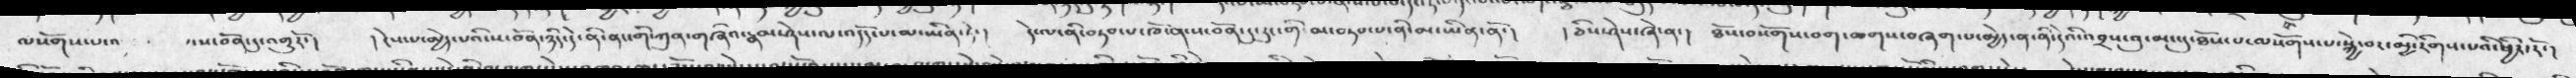ལསོགས་པ་འ    ་ས་བོན་དུ་འགྱུརོ་།  ། ངེས་པ་མྱེད་པའི་ས་བོན་ཉིད་དེ་ནི་ནང་གི་ཀུན་གཞིའ་རྣམ་ཤེས་ལ་འདོད་པ་མ་ཡིན་ཏེ་།  དེ་ལ་ནི་བཏབ་པ་ཁོ་ན་ས་བོན་དུ་རུང་གི་མ་བཏབ་པ་ནི་མ་ཡིན་ནོ་།  ། ཅིས་ཤེས་ཞེ་ན་།   ཐོས་བསོགས་་བག་ཆགས་བཞག་པ་མྱེད་ན་དེའི་འབྲས་བུ་མང་དུ་ཐོས་ལསོགས་པ་སྐྱེ་བར་མྱི་རིགས་པའི་ཕྱིར་རོ་།
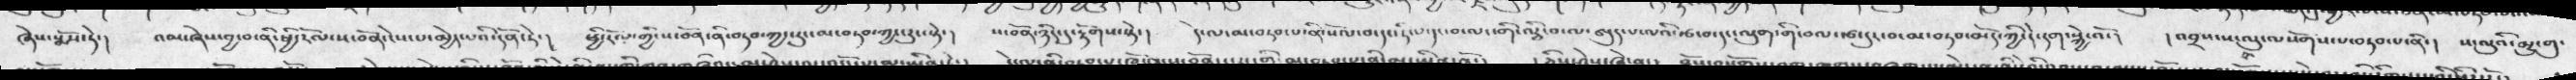ཞེས་སྨོས་ཏེ་།  འམ་ཞེས་བྱ་བ་ནི་ཕྱི་རོལ་ས་བོན་ངེས་པ་མྱེད་པའི་དོན་ཏེ་།  ཕྱི་རོལ་གྱི་ས་བོན་ནི་བཏབ་ཀྱང་རུང་མ་བཏབ་ཀྱང་རུང་སྟེ་།   ས་བོན་ཉིད་དུ་རྟོགས་སྟེ་།  དེ་ལ་མ་བཏབ་པ་ནི་སོལ་བ་དང་ཏིལ་དང་བ་ལང་གི་ལྕི་བ་ལ་ཨུ་པ་ལའི་རྩ་བ་དང་ལུག་གི་བལ་རྩ་དུང་བ་མ་བཏབ་མོད་ཀྱི་དེ་དག་སྐྱེ་འོ་།  ། འབྲས་ས་ལུ་ལསོགས་པ་བཏབ་པ་ནི་།  ས་ལུའི་མྱུ་གུ་
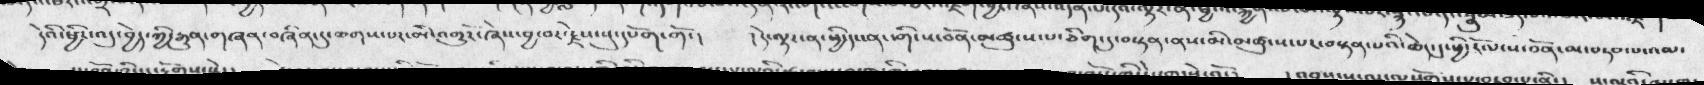དེའི་ཕྱིར་འདུ་བྱེད་ཀྱི་རྒྱུན་གཞན་བཞིན་དུ་ཆགས་པར་མི་འགྱུརོ་ཞེས་བྱ་བར་རྗེས་སུ་དཔོག་གོ་།  ། དེ་ལྟར་ན་ཕྱི་དང་ནང་གི་ས་བོན་མཚུངས་པ་ཅིག་དུ་བསྟན་ནས་མི་མཚུངས་པར་བསྟན་པའི་ཆེད་དུ་ཕྱིར་རོལ་ས་བོན་མ་བཏབ་པའམ་
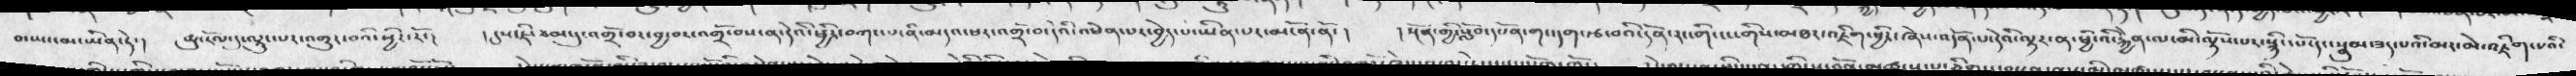མ་སྤང་མ་ཡིན་ཏེ་།  ཚུ་རོལ་དུ་ལྟུང་པར་འགྱུར་བའི་ཕྱིར་རོ་།  ། དུས་ཇི་ཙམ་དུ་འགྲོ་བར་བྱ་བར་འགྲོ་བས་ན་དེའི་ཕྱིར་བཀང་པ་ནི་མདའ་ཕར་འགྲོ་བ་དེའི་འཕེན་པར་བྱེད་པ་ཡིན་པར་མངོན་ནོ་།  ། སྔོན་གྱི་སློབ་དཔོན་གང་དག་རྩ་བའི་དོན་རང་གི་ངང་གིས་མཐར་འཇིག་ཕྱིར་ཞེས་འདོན་པ་དེའི་ལྟར་ན་ཕྱི་འི་རྐྱེན་ལ་མི་ལྟོས་པར་སྙིང་པོ་དང་སྣུམ་ཟད་པའི་མར་མར་འཇིག་པའི་
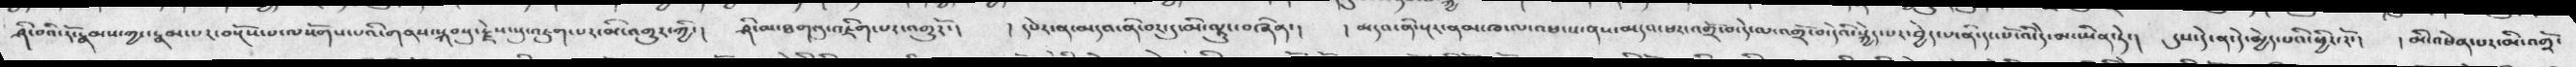ཤི་བའི་རོ་རྣམས་ཀྱང་རྣམ་པར་བསྔོས་པ་ལསོགས་པའི་གནས་སྐབསུ་རྗེས་སུ་འཇུག་པར་མི་འགྱུར་ཀྱི་།   ཤི་མ་ཐག་དུ་འཇིག་པར་འགྱུརོ་།   ། དཔེར་ན་མདའ་ནི་བར་དུ་མི་ལྟུང་བཞིན་།   ། མདའ་ནི་སྔར་ནམ་ཁ་ལ་འཕངས་ནས་མདའ་ཕར་འགྲོ་བ་དེ་ལ་འགྲོ་བ་དེའི་སྐྱིད་པར་བྱེད་པ་ནི་དང་པོ་འི་དེ་མ་ཡིན་ཏེ་།  དུས་དེ་ན་མྱེད་པའི་ཕྱིར་རོ་།   ། མི་འཕེན་པར་མི་འགྲོ་
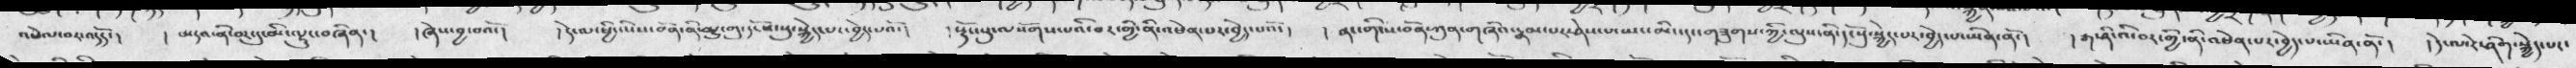འཕེལ་བར་འདོད་།  ། མདའ་ནི་བར་དུ་མི་ལྷུང་བཞིན་།  ། ཞེས་བྱ་པའོ་།  ། དེ་ལ་ཕྱི་ཡི་འི་ས་བོན་ནི་མྱུ་གུ་དངོས་སུ་སྐྱེད་པ་བྱེད་པའོ་།   ། སྟོང་སུ་ལསོགས་པའི་བར་གྱི་ནི་འཕེན་པར་བྱེད་པའོ་།   ། ནང་གི་ས་བོན་ཀུན་གཞིའ་རྣམ་པར་ཤེས་པ་ཡང་མིང་དང་གཟུགས་ཀྱི་ལུས་ནི་དངོསུ་སྐྱེད་པར་བྱེད་པ་ཡིན་ནོ་།   ། རྒ་ཤིའི་བར་གྱི་ནི་འཕེན་པར་བྱེད་པ་ཡིན་ནོ་།   ། དེ་འཕེར་ཤིག་སྐྱེད་པར་
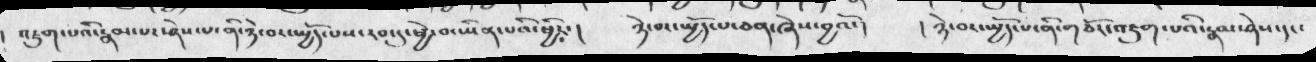འཇུག་པའི་རྣམ་པར་ཤེས་པ་ནི་ཉེ་བར་སྤྱོད་པས་རབ་དུ་ཕྱེ་བ་ཡིན་པའི་ཕྱིར་།  ཉེ་བར་སྤྱོད་པ་ཅན་ཞེས་བྱའོ་།  །ཉེ་བར་སྤྱོད་པ་ནི་གཅོད་འཇུག་པའི་རྣམ་ཤེས་དང་
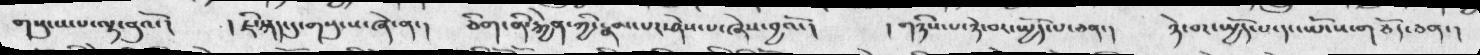གསུངས་པ་ལྟ་བུའོ་།   ། ཇི་སྐད་དུ་གསུངས་ཞེ་ན་།    ཅིག་ནི་རྐྱེན་ཀྱི་རྣམ་པར་ཤེས་པ་ཞེས་བྱའོ་།   ། གཉིས་པ་ཉེ་བར་སྤྱོད་པ་ཅན་།  ཉེ་བར་སྤྱོད་པ་དང་ཡོངས་གཅོད་ཅན་།
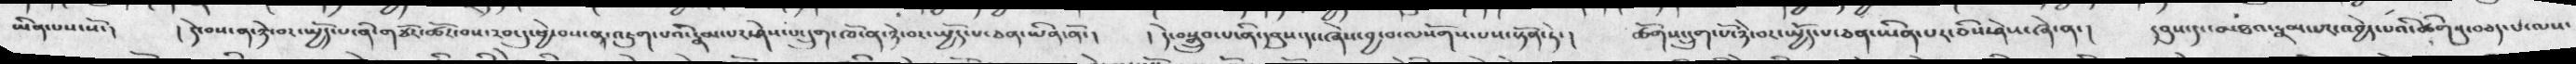ཡིན་པས་སོ་།   ། དེ་བས་ན་ཉེ་བར་སྤྱོད་པ་ནི་གཙོར་ཚོར་བས་རབ་དུ་ཕྱེ་བས་ན་འཇུག་པའི་རྣམ་པར་ཤེས་པ་དྲུག་ཁོ་ན་ཉེ་བར་སྤྱོད་པ་ཅན་ཡིན་ནོ་།   ། དེ་བསྒྲུབ་པ་ནི་དབུས་དང་ཞེས་་བྱ་བ་ལསོགས་པས་སྟོན་ཏེ་།   ཚོགས་དྲུག་པོ་ཉེ་བར་སྤྱོད་པ་ཅན་ཡིན་པར་ཅིས་ཤེས་ཞེ་ན་།   དབུས་དང་མཐའ་རྣམ་པར་འབྱེད་པའི་ཚིགསུ་བཅད་པ་ལས་
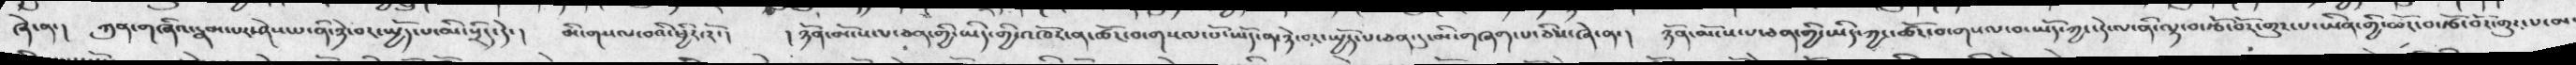ཞེ་ན་།  ཀུན་གཞིའ་རྣམ་པར་ཤེས་པ་ནི་ཉེ་བར་སྤྱོད་པ་མི་སྲིད་དེ་།  མི་གསལ་བའི་ཕྱིར་རོ་།   ། ཉོན་མོངས་པ་ཅན་གྱི་ཡིད་གྱི་འཁོར་ན་ཚོར་བ་གསལ་པོ་ཡོད་ན་ཉེ་བར་སྤྱོད་པ་ཅན་དུ་མི་གཞག་པ་ཅིས་ཞེ་ན་།   ཉོན་མོངས་པ་ཅན་གྱི་ཡིད་ཀྱང་ཚོར་བ་གསལ་བ་ཡོད་ཀྱང་དེ་ལ་ནི་ལྟ་བ་རྩོ་བར་གྱུར་པ་ཡིན་གྱི་ཚོར་རྩོ་བར་གྱུར་པ་མ་
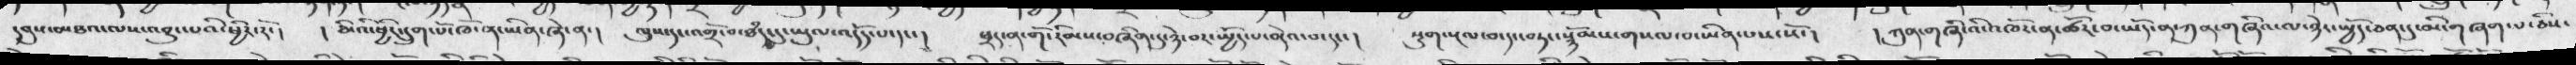དབུས་མཐའ་ལས་འབྱུང་པའི་ཕྱིར་རོ་།   ། ཅིའི་ཕྱིར་དྲུག་པོ་ཁོ་ན་ཡིན་ཞེ་ན་།  ལུས་དང་འགྲོ་བ་ཐཾད་དུ་ཡུལ་འདོད་པ་དང་།  ཕྲད་ན་གོ་རིམས་བཞིན་དུ་ཉེ་བར་སྤྱོད་པ་བདེའ་བ་དང་།   སྡུག་སྔལ་བ་དང་བཏང་སྙོམས་གསལ་བ་ཡིན་པས་སོ་།   ། ཀུན་གཞི་འི་འཁོར་ན་ཚོར་བ་ཡོད་ན་ཀུན་གཞིའ་ལ་ཉེར་སྤྱོད་ཅན་དུ་མི་གཞག་པ་
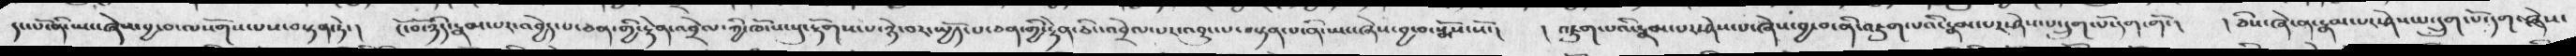དང་པོ་ནི་ཡང་ཞེས་བྱ་བ་ལསོགས་པས་བསྟན་ཏེ་།  ངོ་བོ་ཉིད་རྣམ་པར་འབྱེད་པ་ཅན་གྱི་རྟེན་འབྲེལ་ཀྱི་ཁོངས་སུ་རྟོགས་པ་ཉེ་བར་སྤྱོད་པ་ཅན་གྱི་རྟེན་ཅིང་འབྲེལ་པར་འབྱུང་པ་བསྟན་པ་ནི་སྤང་ཞེས་བྱ་བ་སྨོས་སོ་།   །འཇུག་པའི་རྣམ་པར་ཤེས་པ་ཞེས་བྱ་བ་ནི་འཇུག་པའི་རྣམ་པར་ཤེས་པ་དྲུག་པོ་དག་གོ་།   ཅིས་ཞེ་ན་རྣམ་པར་ཤེས་པ་དྲུག་པོ་དག་ཞེས་
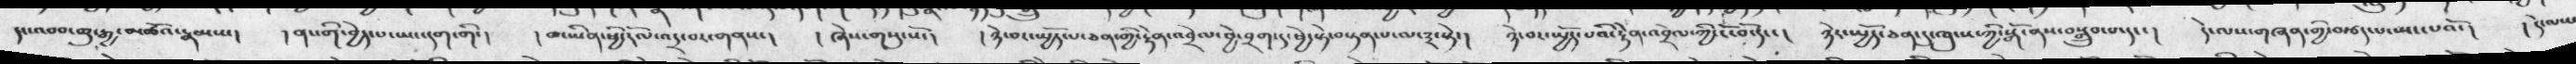དང་འབབ་ཆུ་རྒྱ་མཚོའ་རྣམས་།  ། ནང་གི་བྱེད་པ་ཡང་དག་གི་།    ། མ་ཡིན་ཕྱི་རོལ་འདྲ་བར་གནས་།  ། ཞེས་གསུངསོ་།   ། ཉེ་བར་སྤྱོད་པ་ཅན་གྱི་རྟེན་འབྲེལ་བྱེ་བྲག་དུ་ཕྱེ་སྟེ་བསྟན་པ་ལ་༣་སྟེ་།  ཉེ་བར་སྤྱོད་པའི་རྟེན་འབྲེལ་ཀྱི་ངོ་བོ་དང་།   ཉེར་སྤྱོད་ཅན་དུ་ཁུངས་ཀྱི་སྒོ་ནས་བསྒྲུབ་པ་དང་།   དེ་ལས་གཞན་གྱ་བརྩད་པ་མང་པའོ་།   ། དེ་ལས་
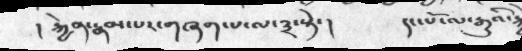། རྐྱེན་རྣམ་པར་གཞག་པ་ལ་༣་སྟེ་།    དང་པོ་ལ་རྒྱུའི་རྐྱེན
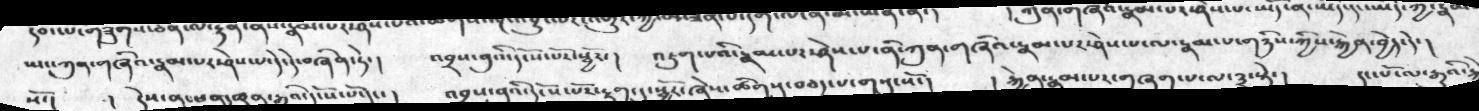ཡང་ཀུན་གཞིའ་རྣམ་པར་ཤེས་པ་དེ་དེ་བཞིན་ཏེ་།   འབྲས་བུའི་དངོས་པོར་སྦྱོང་།   འཇུག་པའི་རྣམ་པར་ཤེས་པ་ནི་ཀུན་གཞིའ་རྣམ་པར་ཤེས་པ་ལ་རྣམ་པ་གཉིས་ཀྱིས་རྐྱེན་བྱེད་དེ་།
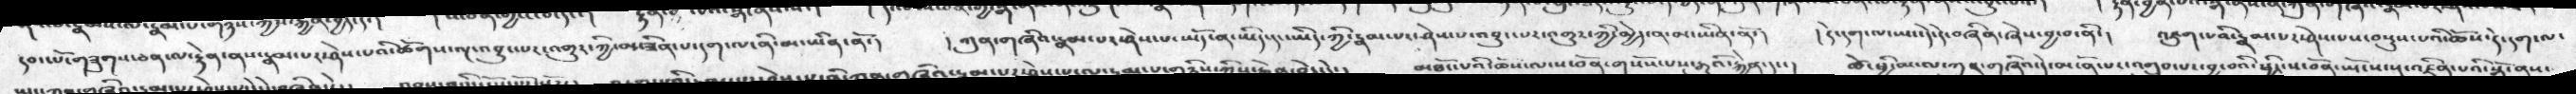དབང་པོ་གཟུགས་ཅན་པ་རྟེན་ནས་རྣམ་པར་ཤེས་པའི་ཚོགས་ལྔ་འབྱུང་པར་འགྱུར་ཀྱི་མ་ཟིན་པ་དག་ལ་ནི་མ་ཡིན་ནོ་།  ། ཀུན་གཞིའ་རྣམ་པར་ཤེས་པ་ཡོད་ན་ཡིད་དང་ཡིད་ཀྱི་རྣམ་པར་ཤེས་པ་འབྱུང་པར་འགྱུར་ཀྱི་མྱེད་ན་མ་ཡིན་ནོ་།  ། དེ་དག་ལ་ཡང་དེ་དེ་བཞིན་ཞེས་བྱ་བ་ནི་།   འཇུག་པའི་རྣམ་པར་ཤེས་པས་བསྡུས་པའི་ཆོས་དེ་དག་ལ་
